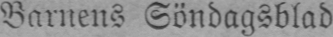Barnens Söndagsblad
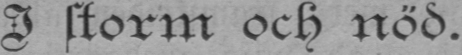I storm ock nöd.
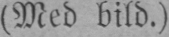(Med bild.)
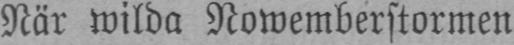När wilda Nowemberstormen
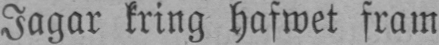Jagar kring hafwet fram
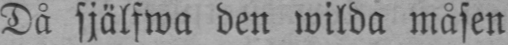Då själfwa den wilda måsen
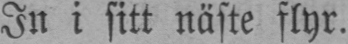In i sitt näste flyr.
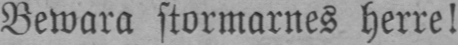Bewara stormarnes herre!
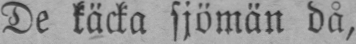De käcka sjömän då,
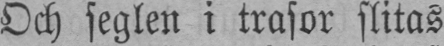Och seglen i trasor slitas
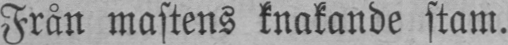Från mastens knakande stam.
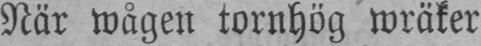När wågen tornhög wräker
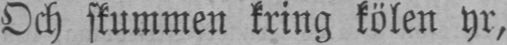Och stummen kring kölen yr,
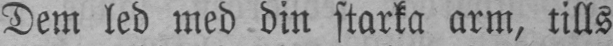Dem led med din starka arm, tills
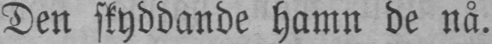Den skyddande hamn de nå.
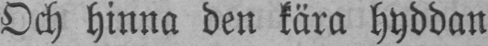Och hinna den kära hyddan
